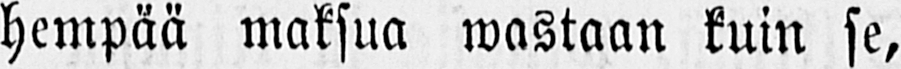hempää maksua wastaan kuin se,
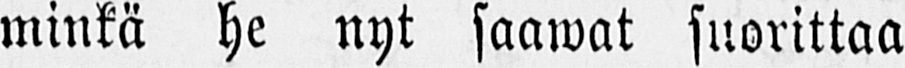minkä he nyt saawat suorittaa
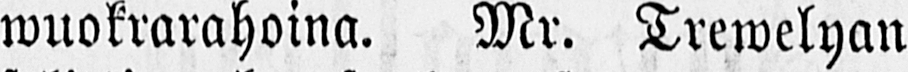wuokrarahoina. Mr. Trewelyan
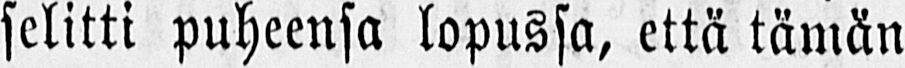selitti puheensa lopussa, että tämän
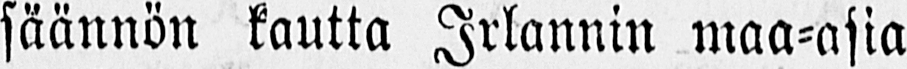säännön kautta Irlannin maa-asia
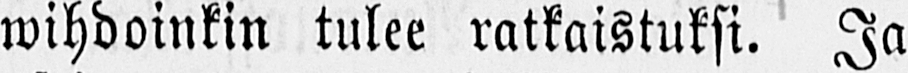wihdoinkin tulee ratkaistuksi. Ja
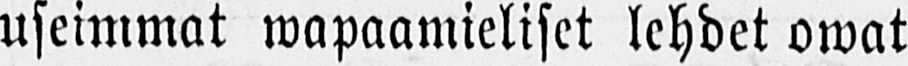useimmat wapaamieliset lehdet owat
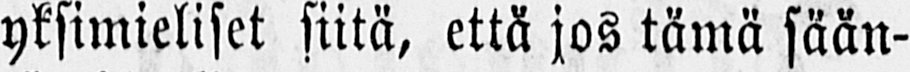yksimieliset siitä, että jos tämä sään-
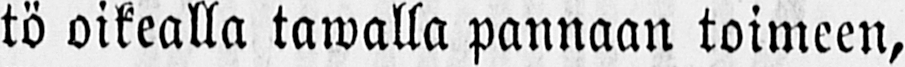tö oikealla tawalla pannaan toimeen,
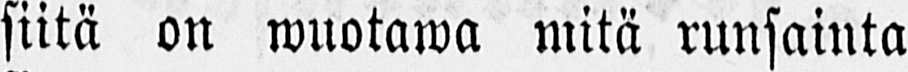siitä on wuotawa mitä runsainta
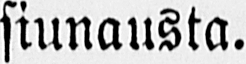siunausta.
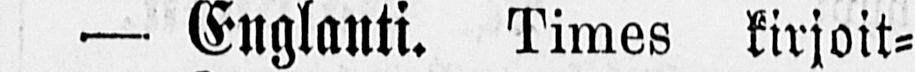— Englanti. Times kirjoit-
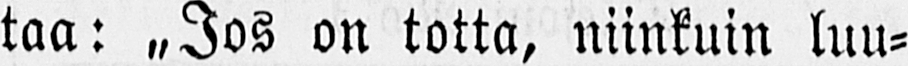taa: „Jos on totta, niinkuin luu-
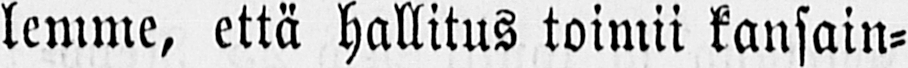lemme, että hallitus toimii kansain-
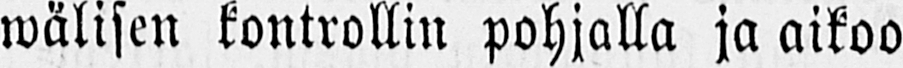wälisen kontrollin pohjalla ja aikoo
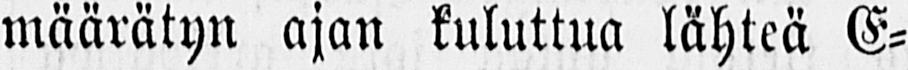määrätyn ajan kuluttua lähteä E-
